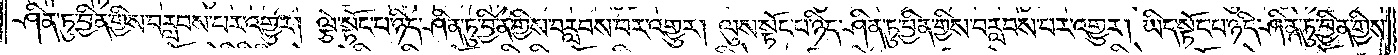ཤིན་ཏུ་བྱིན་གྱིས་བརླབས་པར་འགྱུར། ལྕེ་སྟོང་པ་ཉིད་ཤིན་ཏུ་བྱིན་གྱིས་བརླབས་པར་འགྱུར། ལུས་སྟོང་པ་ཉིད་ཤིན་ཏུ་བྱིན་གྱིས་བརླབས་པར་འགྱུར། ཡིད་སྟོང་པ་ཉིད་ཤིན་ཏུ་བྱིན་གྱིས་
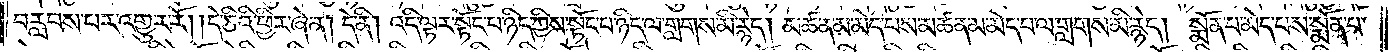བརླབས་པར་འགྱུར་རོ། །དེ་ཅིའི་ཕྱིར་ཞེ་ན། དེ་ནི། འདི་ལྟར་སྟོང་པ་ཉིད་ཀྱིས་སྟོང་པ་ཉིད་ལ་གླགས་མི་རྙེད། མཚན་མ་མེད་པས་མཚན་མ་མེད་པ་ལ་གླགས་མི་རྙེད། སྨོན་པ་མེད་པས་སྨོན་པ་
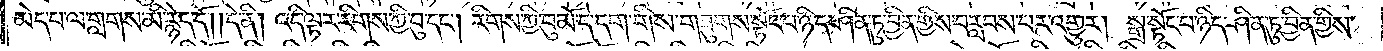མེད་པ་ལ་གླགས་མི་རྙེད་དོ། །དེ་ནི། འདི་ལྟར་རིགས་ཀྱི་བུ་དང༌། རིགས་ཀྱི་བུ་མོ་དེ་དག་གིས་གཟུགས་སྟོང་པ་ཉིད་ཤིན་ཏུ་བྱིན་གྱིས་བརླབས་པར་འགྱུར། སྒྲ་སྟོང་པ་ཉིད་ཤིན་ཏུ་བྱིན་གྱིས་
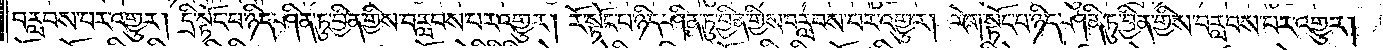བརླབས་པར་འགྱུར། དྲི་སྟོང་པ་ཉིད་ཤིན་ཏུ་བྱིན་གྱིས་བརླབས་པར་འགྱུར། རོ་སྟོང་པ་ཉིད་ཤིན་ཏུ་བྱིན་གྱིས་བརླབས་པར་འགྱུར། རེག་སྟོང་པ་ཉིད་ཤིན་ཏུ་བྱིན་གྱིས་བརླབས་པར་འགྱུར།
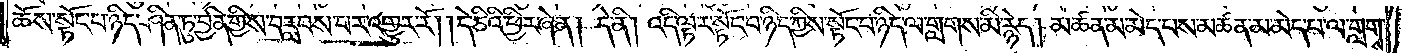ཆོས་སྟོང་པ་ཉིད་ཤིན་ཏུ་བྱིན་གྱིས་བརླབས་པར་འགྱུར་རོ། །དེ་ཅིའི་ཕྱིར་ཞེ་ན། དེ་ནི། འདི་ལྟར་སྟོང་པ་ཉིད་ཀྱིས་སྟོང་པ་ཉིད་ལ་གླགས་མི་རྙེད། མཚན་མ་མེད་པས་མཚན་མ་མེད་པ་ལ་གླགས་
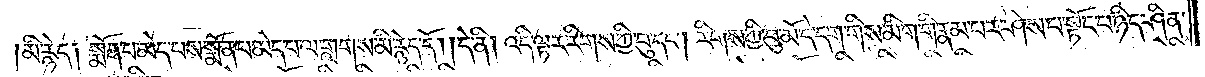མི་རྙེད། སྨོན་པ་མེད་པས་སྨོན་པ་མེད་པ་ལ་གླགས་མི་རྙེད་དོ། །དེ་ནི། འདི་ལྟར་རིགས་ཀྱི་བུ་དང༌། རིགས་ཀྱི་བུ་མོ་དེ་དག་གིས་མིག་གི་རྣམ་པར་ཤེས་པ་སྟོང་པ་ཉིད་ཤིན་
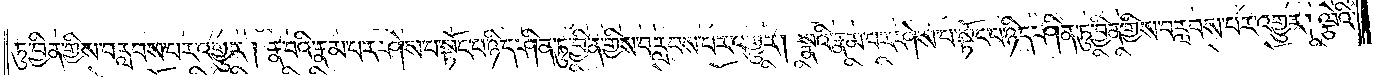ཏུ་བྱིན་གྱིས་བརླབས་པར་འགྱུར། རྣ་བའི་རྣམ་པར་ཤེས་པ་སྟོང་པ་ཉིད་ཤིན་ཏུ་བྱིན་གྱིས་བརླབས་པར་འགྱུར། སྣའི་རྣམ་པར་ཤེས་པ་སྟོང་པ་ཉིད་ཤིན་ཏུ་བྱིན་གྱིས་བརླབས་པར་འགྱུར། ལྕེའི་
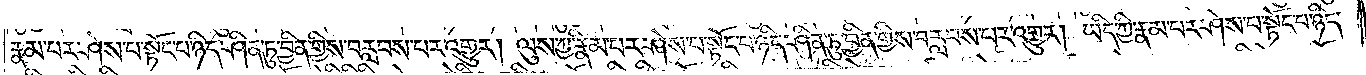རྣམ་པར་ཤེས་པ་སྟོང་པ་ཉིད་ཤིན་ཏུ་བྱིན་གྱིས་བརླབས་པར་འགྱུར། ལུས་ཀྱི་རྣམ་པར་ཤེས་པ་སྟོང་པ་ཉིད་ཤིན་ཏུ་བྱིན་གྱིས་བརླབས་པར་འགྱུར། ཡིད་ཀྱི་རྣམ་པར་ཤེས་པ་སྟོང་པ་ཉིད་
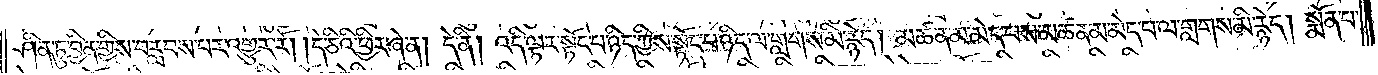ཤིན་ཏུ་བྱིན་གྱིས་བརླབས་པར་འགྱུར་རོ། །དེ་ཅིའི་ཕྱིར་ཞེ་ན། དེ་ནི། འདི་ལྟར་སྟོང་པ་ཉིད་ཀྱིས་སྟོང་པ་ཉིད་ལ་གླགས་མི་རྙེད། མཚན་མ་མེད་པས་མཚན་མ་མེད་པ་ལ་གླགས་མི་རྙེད། སྨོན་པ་
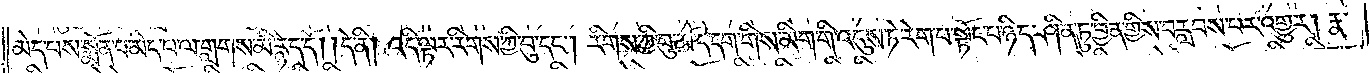མེད་པས་སྨོན་པ་མེད་པ་ལ་གླགས་མི་རྙེད་དོ། །དེ་ནི། འདི་ལྟར་རིགས་ཀྱི་བུ་དང༌། རིགས་ཀྱི་བུ་མོ་དེ་དག་གིས་མིག་གི་འདུས་ཏེ་རེག་པ་སྟོང་པ་ཉིད་ཤིན་ཏུ་བྱིན་གྱིས་བརླབས་པར་འགྱུར། རྣ་
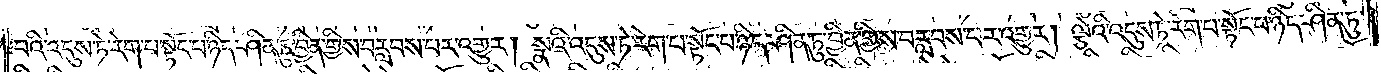བའི་འདུས་ཏེ་རེག་པ་སྟོང་པ་ཉིད་ཤིན་ཏུ་བྱིན་གྱིས་བརླབས་པར་འགྱུར། སྣའི་འདུས་ཏེ་རེག་པ་སྟོང་པ་ཉིད་ཤིན་ཏུ་བྱིན་གྱིས་བརླབས་པར་འགྱུར། ལྕེའི་འདུས་ཏེ་རེག་པ་སྟོང་པ་ཉིད་ཤིན་ཏུ་
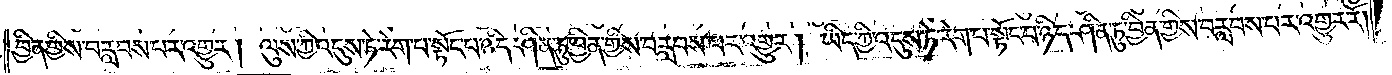བྱིན་གྱིས་བརླབས་པར་འགྱུར། ལུས་ཀྱི་འདུས་ཏེ་རེག་པ་སྟོང་པ་ཉིད་ཤིན་ཏུ་བྱིན་གྱིས་བརླབས་པར་འགྱུར། ཡིད་ཀྱི་འདུས་ཏེ་རེག་པ་སྟོང་པ་ཉིད་ཤིན་ཏུ་བྱིན་གྱིས་བརླབས་པར་འགྱུར་རོ༎
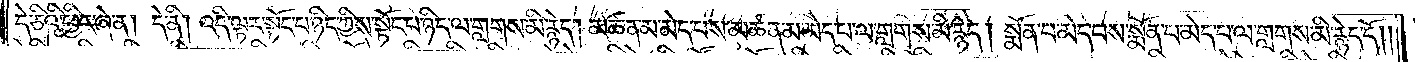དེ་ཅིའི་ཕྱིར་ཞེ་ན། དེ་ནི། འདི་ལྟར་སྟོང་པ་ཉིད་ཀྱིས་སྟོང་པ་ཉིད་ལ་གླགས་མི་རྙེད། མཚན་མ་མེད་པས་མཚན་མ་མེད་པ་ལ་གླགས་མི་རྙེད། སྨོན་པ་མེད་པས་སྨོན་པ་མེད་པ་ལ་གླགས་མི་རྙེད་དོ༎
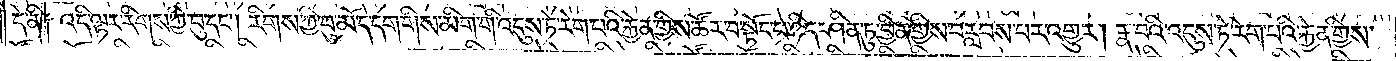དེ་ནི། འདི་ལྟར་རིགས་ཀྱི་བུ་དང༌། རིགས་ཀྱི་བུ་མོ་དེ་དག་གིས་མིག་གི་འདུས་ཏེ་རེག་པའི་རྐྱེན་གྱིས་ཚོར་བ་སྟོང་པ་ཉིད་ཤིན་ཏུ་བྱིན་གྱིས་བརླབས་པར་འགྱུར། རྣ་བའི་འདུས་ཏེ་རེག་པའི་རྐྱེན་གྱིས་
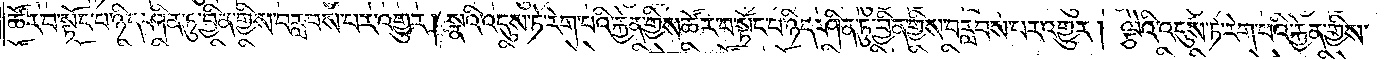ཚོར་བ་སྟོང་པ་ཉིད་ཤིན་ཏུ་བྱིན་གྱིས་བརླབས་པར་འགྱུར། སྣའི་འདུས་ཏེ་རེག་པའི་རྐྱེན་གྱིས་ཚོར་བ་སྟོང་པ་ཉིད་ཤིན་ཏུ་བྱིན་གྱིས་བརླབས་པར་འགྱུར། ལྕེའི་འདུས་ཏེ་རེག་པའི་རྐྱེན་གྱིས་
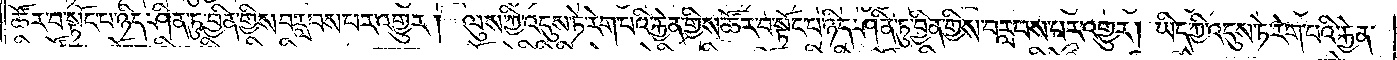ཚོར་བ་སྟོང་པ་ཉིད་ཤིན་ཏུ་བྱིན་གྱིས་བརླབས་པར་འགྱུར། ལུས་ཀྱི་འདུས་ཏེ་རེག་པའི་རྐྱེན་གྱིས་ཚོར་བ་སྟོང་པ་ཉིད་ཤིན་ཏུ་བྱིན་གྱིས་བརླབས་པར་འགྱུར། ཡིད་ཀྱི་འདུས་ཏེ་རེག་པའི་རྐྱེན་
